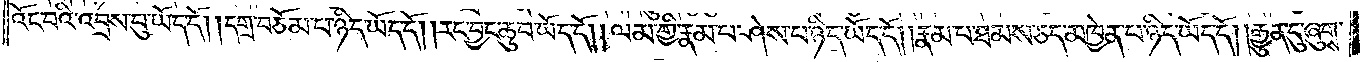འོང་བའི་འབྲས་བུ་ཡོད་དོ། །དགྲ་བཅོམ་པ་ཉིད་ཡོད་དོ། །རང་བྱང་ཆུབ་ཡོད་དོ། །ལམ་གྱི་རྣམ་པ་ཤེས་པ་ཉིད་ཡོད་དོ། །རྣམ་པ་ཐམས་ཅད་མཁྱེན་པ་ཉིད་ཡོད་དོ། །རྒྱུན་དུ་ཞུགས་
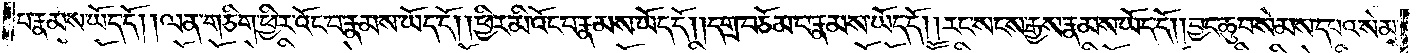པ་རྣམས་ཡོད་དོ། །ལན་གཅིག་ཕྱིར་འོང་བ་རྣམས་ཡོད་དོ། །ཕྱིར་མི་འོང་བ་རྣམས་ཡོད་དོ། །དགྲ་བཅོམ་པ་རྣམས་ཡོད་དོ། །རང་སངས་རྒྱས་རྣམས་ཡོད་དོ། །བྱང་ཆུབ་སེམས་དཔའ་སེམས་
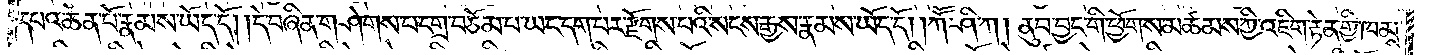དཔའ་ཆེན་པོ་རྣམས་ཡོད་དོ། །དེ་བཞིན་གཤེགས་པ་དགྲ་བཅོམ་པ་ཡང་དག་པར་རྫོགས་པའི་སངས་རྒྱས་རྣམས་ཡོད་དོ། ཀཽ་ཤི་ཀ། ནུབ་བྱང་གི་ཕྱོགས་མཚམས་ཀྱི་འཇིག་རྟེན་གྱི་ཁམས་
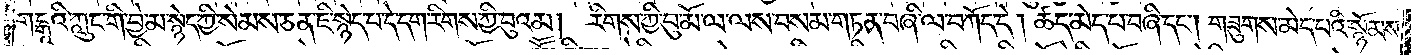གངྒཱའི་ཀླུང་གི་བྱེ་མ་སྙེད་ཀྱི་སེམས་ཅན་ཇི་སྙེད་པ་དེ་དག་རིགས་ཀྱི་བུའམ། རིགས་ཀྱི་བུ་མོ་ལ་ལས་བསམ་གཏན་བཞི་ལ་བཀོད་དེ། ཚད་མེད་པ་བཞི་དང༌། གཟུགས་མེད་པའི་སྙོམས་
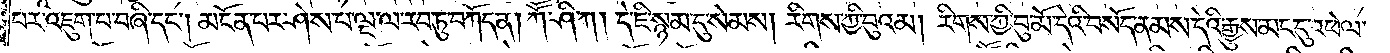པར་འཇུག་པ་བཞི་དང༌། མངོན་པར་ཤེས་པ་ལྔ་ལ་རབ་ཏུ་བཀོད་ན། ཀཽ་ཤི་ཀ། དེ་ཇི་སྙམ་དུ་སེམས། རིགས་ཀྱི་བུའམ། རིགས་ཀྱི་བུ་མོ་དེའི་བསོད་ནམས་དེའི་རྒྱུས་མང་དུ་འཕེལ་
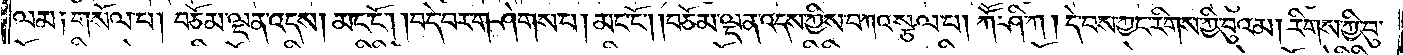ལམ༑ གསོལ་པ། བཅོམ་ལྡན་འདས། མང་ངོ༌། །བདེ་བར་གཤེགས་པ། མང་ངོ༌། །བཅོམ་ལྡན་འདས་ཀྱིས་བཀའ་སྩལ་པ། ཀཽ་ཤི་ཀ། དེ་བས་ཀྱང་རིགས་ཀྱི་བུའམ། རིགས་ཀྱི་བུ་
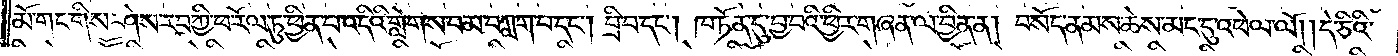མོ་གང་གིས་ཤེས་རབ་ཀྱི་ཕ་རོལ་ཏུ་ཕྱིན་པ་འདིའི་གླེགས་བམ་བཀླག་པ་དང༌། བྲི་བ་དང༌། ཁ་ཏོན་དུ་བྱ་བའི་ཕྱིར་གཞན་ལ་བྱིན་ན། བསོད་ནམས་ཆེས་མང་དུ་འཕེལ་ལོ། །དེ་ཅིའི་
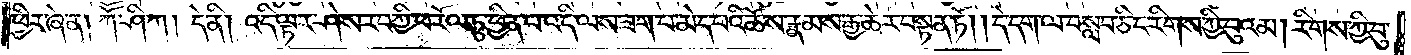ཕྱིར་ཞེ་ན། ཀཽ་ཤ་ཀི། དེ་ནི། འདི་ལྟར་ཤེས་རབ་ཀྱི་ཕ་རོལ་ཏུ་ཕྱིན་པ་འདི་ལས་ཟག་པ་མེད་པའི་ཆོས་རྣམས་རྒྱ་ཆེར་བསྟན་ཏེ། དེ་དག་ལ་བསླབ་ཅིང་རིགས་ཀྱི་བུའམ། རིགས་ཀྱི་བུ་
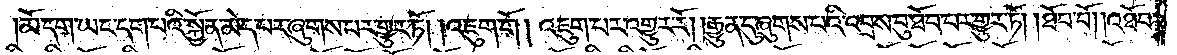མོ་དག་ཡང་དག་པའི་སྐྱོན་མེད་པར་ཞུགས་པར་གྱུར་ཏོ། །འཇུག་གོ། འཇུག་པར་འགྱུར་རོ། །རྒྱུན་དུ་ཞུགས་པའི་འབྲས་བུ་ཐོབ་པར་གྱུར་ཏོ། །ཐོབ་བོ། །འཐོབ་
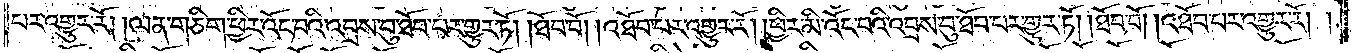པར་འགྱུར་རོ། །ལན་གཅིག་ཕྱིར་འོང་བའི་འབྲས་བུ་ཐོབ་པར་གྱུར་ཏོ། །ཐོབ་བོ། །འཐོབ་པར་འགྱུར་རོ། །ཕྱིར་མི་འོང་བའི་འབྲས་བུ་ཐོབ་པར་གྱུར་ཏོ། །ཐོབ་བོ། །འཐོབ་པར་འགྱུར་རོ། །
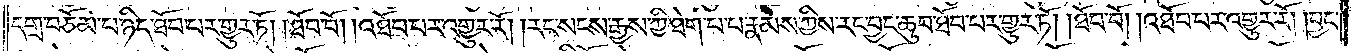དགྲ་བཅོམ་པ་ཉིད་ཐོབ་པར་གྱུར་ཏོ། །ཐོབ་བོ། །འཐོབ་པར་འགྱུར་རོ། །རང་སངས་རྒྱས་ཀྱི་ཐེག་པ་པ་རྣམས་ཀྱིས་རང་བྱང་ཆུབ་ཐོབ་པར་གྱུར་ཏོ། །ཐོབ་བོ། །འཐོབ་པར་འགྱུར་རོ། །བྱང་
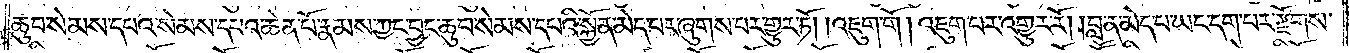ཆུབ་སེམས་དཔའ་སེམས་དཔའ་ཆེན་པོ་རྣམས་ཀྱང་བྱང་ཆུབ་སེམས་དཔའི་སྐྱོན་མེད་པར་ཞུགས་པར་གྱུར་ཏོ། །འཇུག་གོ། འཇུག་པར་འགྱུར་རོ། །བླ་ན་མེད་པ་ཡང་དག་པར་རྫོགས་
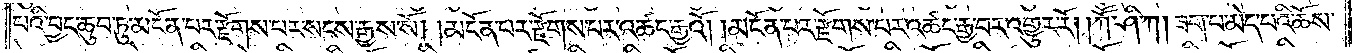པའི་བྱང་ཆུབ་ཏུ་མངོན་པར་རྫོགས་པར་སངས་རྒྱས་སོ། །མངོན་པར་རྫོགས་པར་འཚང་རྒྱའོ། །མངོན་པར་རྫོགས་པར་འཚང་རྒྱ་བར་འགྱུར་རོ། །ཀཽ་ཤི་ཀ། ཟག་པ་མེད་པའི་ཆོས་
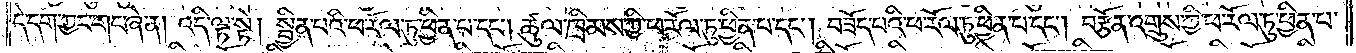དེ་དག་ཀྱང་གང་ཞེ་ན། འདི་ལྟ་སྟེ། སྦྱིན་པའི་ཕ་རོལ་ཏུ་ཕྱིན་པ་དང༌། ཚུལ་ཁྲིམས་ཀྱི་ཕ་རོལ་ཏུ་ཕྱིན་པ་དང༌། བཟོད་པའི་ཕ་རོལ་ཏུ་ཕྱིན་པ་དང༌། བརྩོན་འགྲུས་ཀྱི་ཕ་རོལ་ཏུ་ཕྱིན་པ་
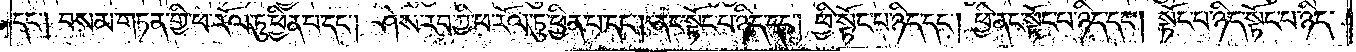དང༌། བསམ་གཏན་གྱི་ཕ་རོལ་ཏུ་ཕྱིན་པ་དང༌། ཤེས་རབ་ཀྱི་ཕ་རོལ་ཏུ་ཕྱིན་པ་དང༌། ནང་སྟོང་པ་ཉིད་དང༌། ཕྱི་སྟོང་པ་ཉིད་དང༌། ཕྱི་ནང་སྟོང་པ་ཉིད་དང༌། སྟོང་པ་ཉིད་སྟོང་པ་ཉིད་
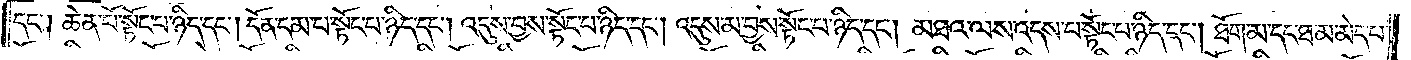དང༌། ཆེན་པོ་སྟོང་པ་ཉིད་དང༌། དོན་དམ་པ་སྟོང་པ་ཉིད་དང༌། འདུས་བྱས་སྟོང་པ་ཉིད་དང༌། འདུས་མ་བྱས་སྟོང་པ་ཉིད་དང༌། མཐའ་ལས་འདས་པ་སྟོང་པ་ཉིད་དང༌། ཐོག་མ་དང་ཐ་མ་མེད་པ་
